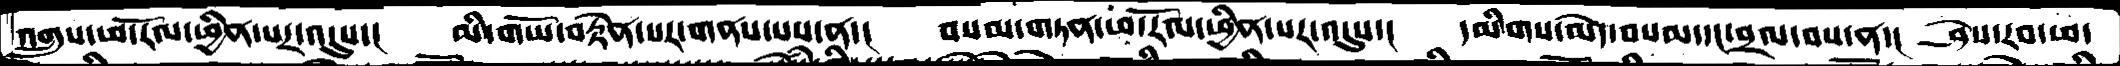འགྲུས་ཕ་རོལ་ཕྱིན་པར་འདུས་།  མི་གཡོ་བརྟེན་པར་གནས་པས་ན་།  བསམ་གཏན་ཕ་རོལ་ཕྱིན་པར་འདུས་།  དམིགས་མེད་བསམ་དང་བྲལ་བས་ན་།  ཤེས་རབ་ཕ་
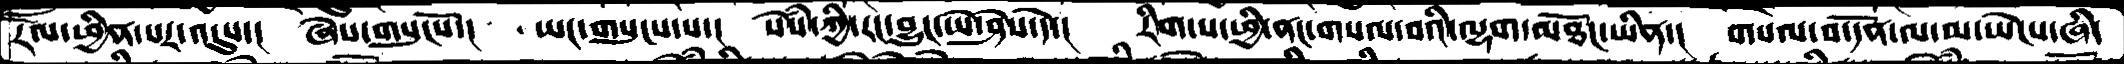རོལ་ཕྱིན་པར་འདུས་།  ཞེས་གསུངསོ་།  ཡང་གསུངས་པ་།  སེཾས་ཀྱི་རང་བྱུང་ཡེ་ཤེས་དེ་།  རིག་པ་ཕྱི་ནང་གསལ་བའི་ལྷག་མཐོང་ཡིན་།  གསལ་བ་དོན་ལ་མ་ཡེངས་ཞི་
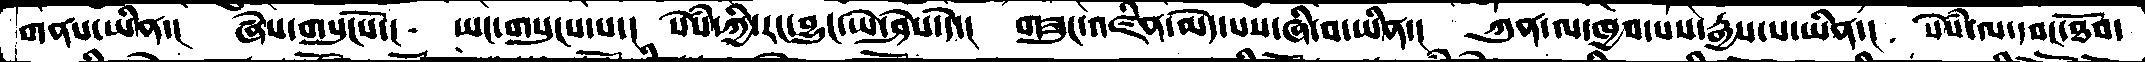གནས་ཡིན་།  ཞེས་གསུངསོ་།  ཡང་གསུང་པ་།  སེཾས་ཀྱི་རང་བྱུང་ཡེ་ཤེས་དེ་།  གཟུང་འཛིན་མེད་པས་ཞི་བ་ཡིན་།  ཀུན་ལ་ཁྱབ་པས་རྒྱས་པ་ཡིན་།  སེཾས་ལ་དབང་ཐོབ་
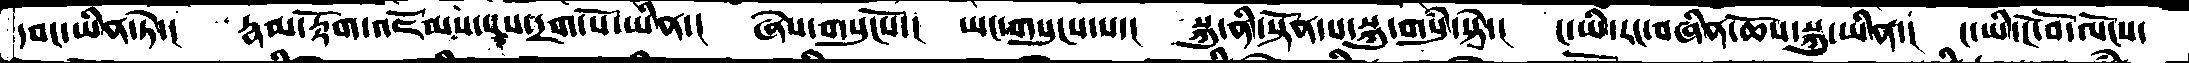དབང་ཡིན་ཏེ་།  རྣམ་རྟོག་འཇོམས་པས་དྲག་པོ་ཡིན་།  ཞེས་གསུངསོ་།  ཡང་གསུངས་པ་།  སྐུ་ནི་སྟོན་པ་སྐུ་གསུམ་སྟེ་།  ང་ཡི་རང་བཞིན་ཆོས་སྐུ་ཡིན་།  ང་ཡི་ངོ་བོ་ལོངས་
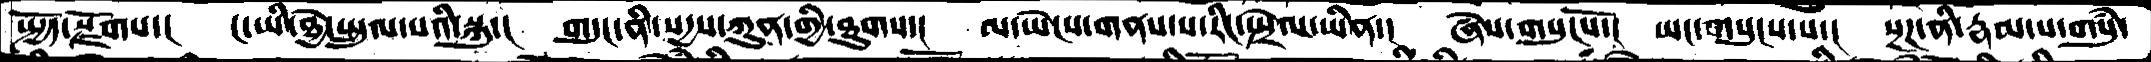སྤྱོད་སྫོགས་།  ང་ཡི་ཐྱེ་སྤྲུལ་པའི་སྐུ་།  གདུང་ནི་སདྱས་ཀུན་གྱི་ཐུགས་།  མ་ཡེངས་གནས་པ་རིང་སྤྲེལ་ཡིན་། ཞེས་གསུངསོ་།  ཡང་གསུངས་པ་།  སྔཌ་ནི་རྣམ་པ་གསུཾ་
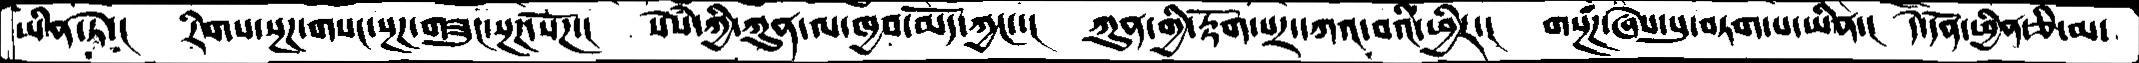ཡིན་ཏེ་།  རིགས་སྔཌ་གསང་སྔཌ་གཟུང་སྔཌ་སོཌ་།  སེམས་ཀྱི་ཀུན་ལ་ཁྱབ་མོད་ཀྱང་།  ཀུན་གྱི་རྟོག་པར་དཀའ་བའི་ཕྱིར་།  གསྔཾཌ་ཞེས་སུ་བཏག་པ་ཡིན་།  དེ་དོན་ཕྱིན་ཅི་མ་
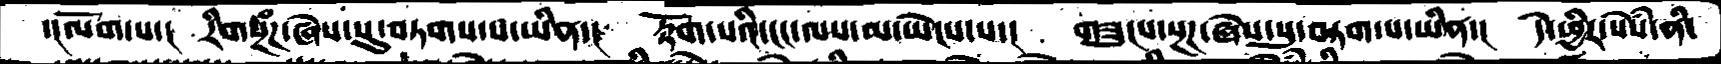་།ལོག་པ་།  རིགསྔཾཌ་ཞེས་སུ་བཏགས་པ་ཡིན་།  རྟོག་པའི་ངང་ལས་མ་ཡེངས་པ་།  གཟུངས་སྔཌ་ཞེས་སུ་བཏག་པ་ཡིན་།  དེ་ཕྱིར་སེཾས་ནི་
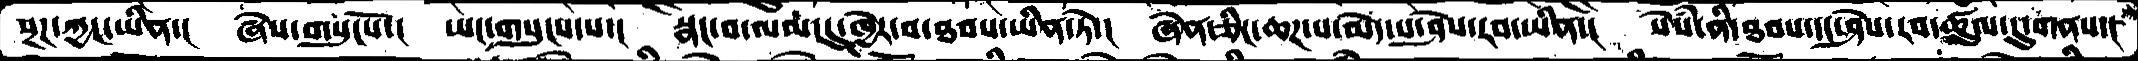སྔར་ཀྱང་ཡིན་།  ཞེས་གསུངསོ་།  ཡང་གསུངས་པ་།  སྣང་བ་ལམ་དུ་ཁྱེར་བ་ཐབས་ཡིན་ཏེ་།  ཞེན་ཅིང་ཆཌ་པ་མེད་པ་ཤེས་རབ་ཡིན་།  སེཾས་ནི་ཐབས་དང་ཤེས་རབ་ཚུལ་དུ་གནས་།
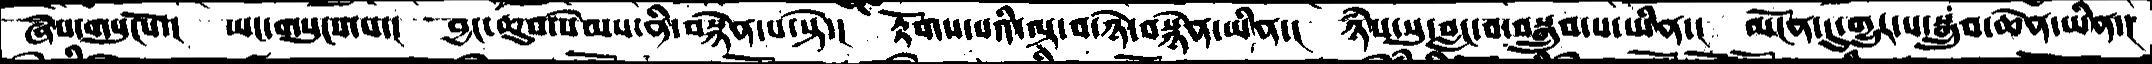ཞེས་གསུངསོ་།  ཡང་གསུངས་པ་།  བྱང་ཆུབ་སེམས་ནི་བསྙེན་པ་སྟེ་།  རྟོགས་པའི་ལྟ་བ་ཉེ་བསྙེན་ཡིན་།  ཉཾས་སུ་བླང་བ་བསྒྲུབ་པ་ཡིན་།  མངོན་དུ་གྱུར་པ་སྒྲུབ་ཆེན་ཡིན་།
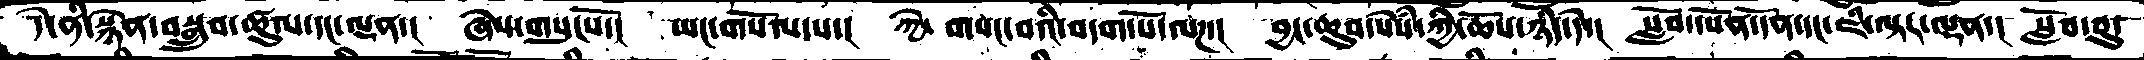དེ་ནི་སྙེན་བསྒྲུབ་ཚུལ་དང་ལྡན་།  ཞེས་གསུངསོ་།  ཡང་གསོལ་པ་།  ཀྱེ་ གསང་བའི་བདག་པོ་ལཌ་།  བྱང་ཆུབ་སེཾས་ཀྱི་ཆོས་ཉིད་དེ་།  སློབ་དཔོན་དོན་དང་ཇི་ལྟར་ལྡན་།  སློབ་བུ་
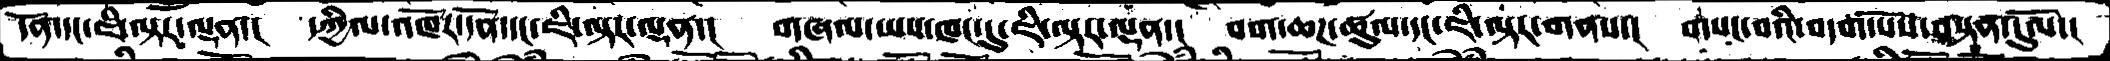དོན་དང་ཇི་ལྟར་ལྡན་།  དཀྱིལ་འཁོར་དོན་དང་ཇི་ལྟར་ལྡན་།  གཞལ་ཡས་ཁང་དུ་ཇི་ལྟར་ལྡན་།  བག་ཆཌ་ཚུལ་དང་ཇི་ལྟར་གནས་།  གསང་བའི་བདག་པོས་བསྟན་དུལོ་།
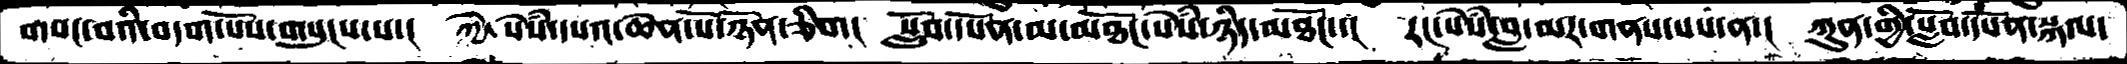གསང་བའི་བདག་པོས་གསུངས་པ་།  ཀྱེ་ སེཾས་དཔའ་ཆེན་པོ་ཉོན་ཅིག།  སློབ་དཔོན་མ་མཐོང་སེཾས་ཉིད་མཐོང་་།  རང་སེཾས་བླ་མར་གནས་པས་ན་།  ཀུན་གྱི་སློབ་དཔོན་སྐལ་
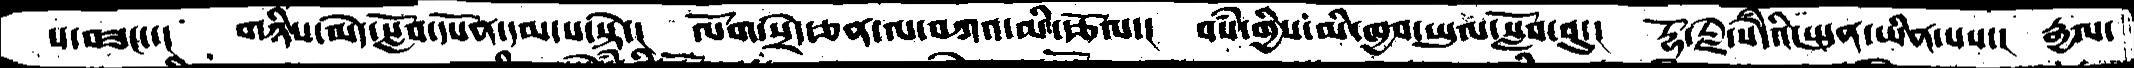པ་བཟང་་།  གཉིས་མེད་སློབ་དཔོན་དམ་པ་སྟེ་།  ལོག་སྲེད་ཅན་ལ་བཀའ་མི་རྩོལ་།  བསཾ་གྱིས་མི་ཁྱབ་ཡུལ་སློབ་བུ་།  རྡོ་རྗེ་སེཾདའི་སྤུན་ཡིན་པས་།  རྒྱལ་
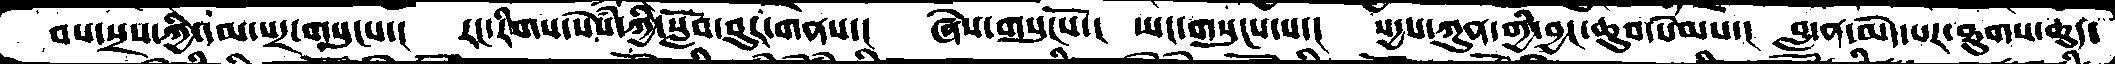བས་སྲས་ཀྱི་དམ་པར་གསུངས་།  རང་རིགས་སེཾས་ཀྱི་སློབ་བུར་གནས་།  ཞེས་གསུངསོ་།   ཡང་གསུངས་པ་།  སདྱས་ཀུན་གྱི་བྱང་ཆུབ་སེམས་།  བླ་ན་མེད་པར་ཐུགས་ཆུད་
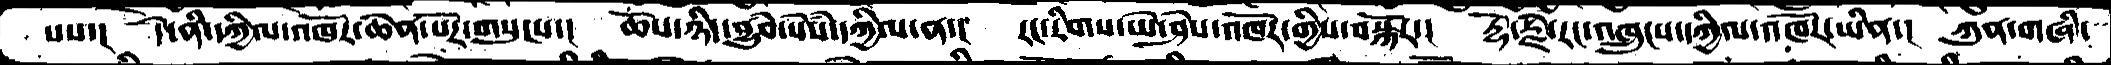པས་།  དེ་ནི་དཀྱིལ་འཁོར་ཆེན་པོར་གསུངས་།  ཆོས་ཉིད་བྱུཾབ་སེཾས་དཀྱིལ་ན་།  རང་རིགས་ཡེ་ཤེས་འཁོར་གྱིས་བསྐོར་།  རྡོ་རྗེ་རང་འཁྲུངས་དཀྱིལ་འཁོར་ཡིན་།  ཀུན་གཞི་
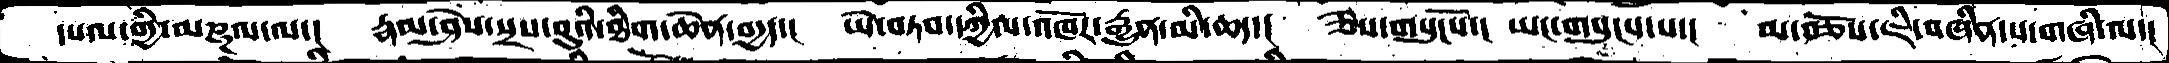དཔལ་གྱི་མཎྜལ་ལ་། རྨན་ཤེས་སྲས་བུའི་ཐིག་ཆེན་བདྱད་། ཡེ་བཏབ་དཀྱིལ་འཁོར་རྒྱུན་མི་ཆད་། ཅེས་གསུངསོ་། ཡང་གསུངས་པ་། མ་བཅོས་ཇི་བཞིན་ས་གཞི་ལ་།
